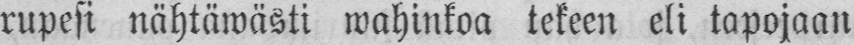rupesi nähtäwästi wahinkoa tekeen eli tapojaan
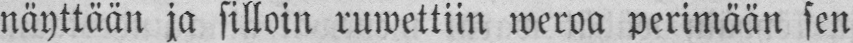näyttään ja silloin ruwettiin weroa perimään sen
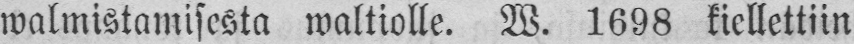walmistamisesta waltiolle. W. 1698 kiellettiin
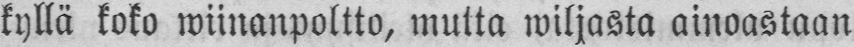kyllä koko wiinanpoltto, mutta wiljasta ainoastaan
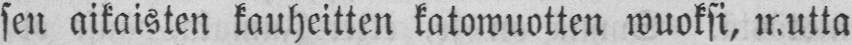sen aikaisten kauheitten katowuotten wuoksi, mutta
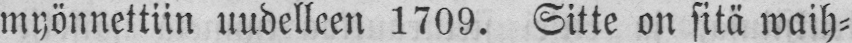myönnettiin uudelleen 1709. Sitte on sitä waih-
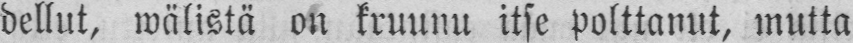dellut, wälistä on kruunu itse polttanut, mutta
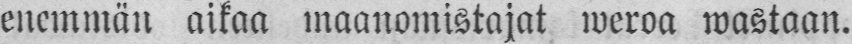enemmän aikaa maanomistajat weroa wastaan.
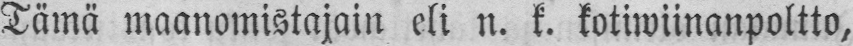Tämä maanomistajain eli n. k. kotiwiinanpoltto.
